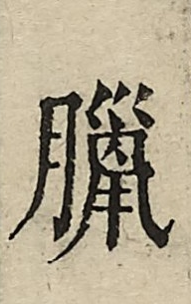臘
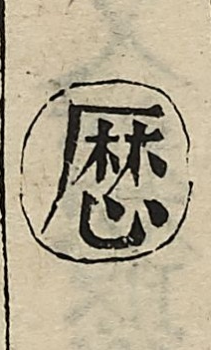厯
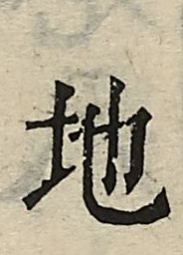地
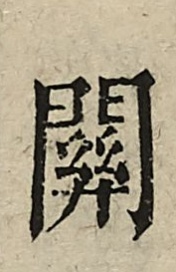關
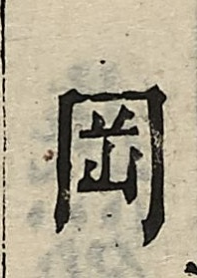岡
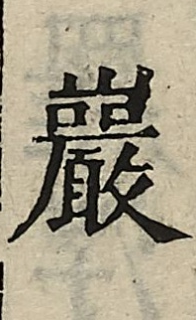巖
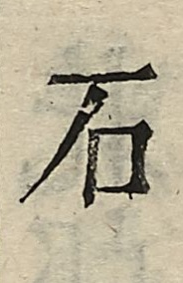石
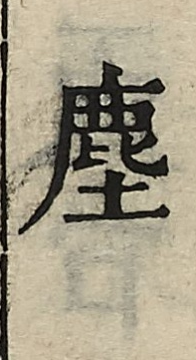塵
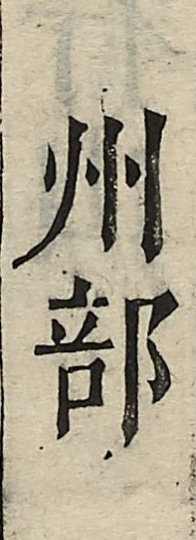州部
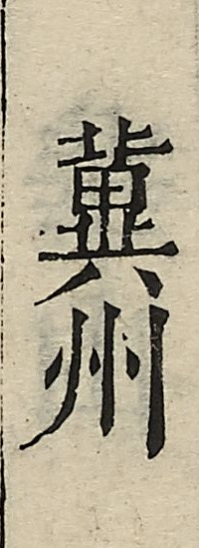冀州
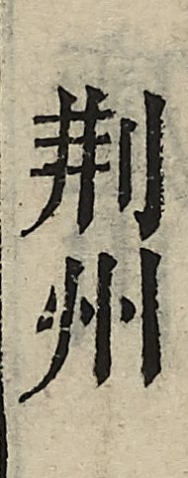荊州
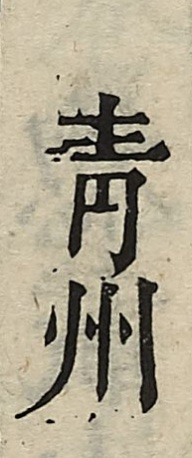青州
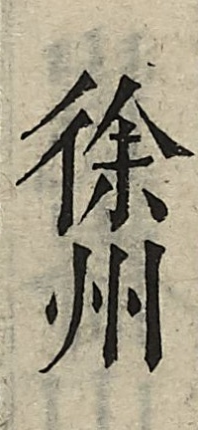徐州
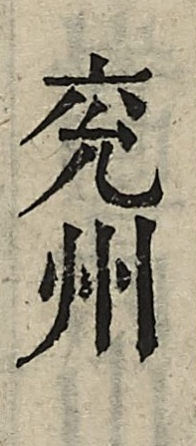兗州
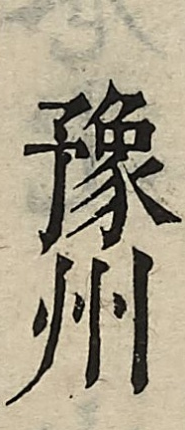豫州
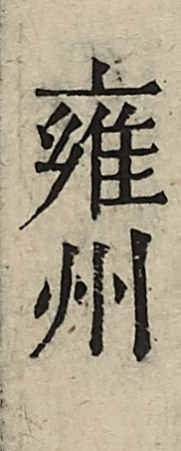雍州
